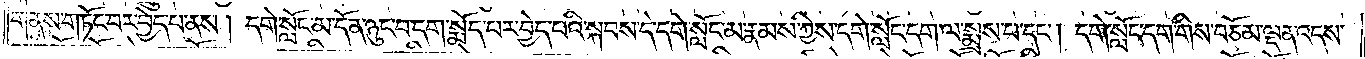གནས་གཏོང་བར་བྱེད་པ་ནས། དགེ་སློང་མ་དོན་ཉུང་བ་དག་སྨོད་པར་བྱེད་པའི་སྐབས་དེ་དགེ་སློང་མ་རྣམས་ཀྱིས་དགེ་སློང་དག་ལ་སྨྲས་པ་དང༌། དགེ་སློང་དག་གིས་བཅོམ་ལྡན་འདས་
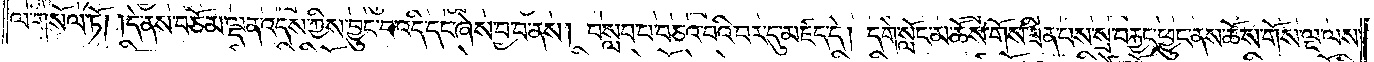ལ་གསོལ་ཏོ། །དེ་ནས་བཅོམ་ལྡན་འདས་ཀྱིས་བྱུང་བ་འདི་དང་ཞེས་བྱ་བ་ནས། བསླབ་པ་བཅའ་བའི་བར་དུ་མཛད་དེ། དགེ་སློང་མ་ཆོས་གོས་ཟིན་པས་སྲ་བརྐྱང་ཕྱུང་ནས་ཆོས་གོས་ལྔ་ལས་
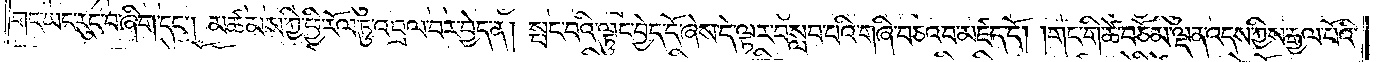གང་ཡང་རུང་བ་ཞིག་དང༌། མཚམས་ཀྱི་ཕྱི་རོལ་ཏུ་འབྲལ་བར་བྱེད་ན། སྤང་བའི་ལྟུང་བྱེད་དོ་ཞེས་དེ་ལྟར་བསླབ་པའི་གཞི་བཅའ་བ་མཛད་དོ། །གང་གི་ཚེ་བཅོམ་ལྡན་འདས་ཀྱིས་རྒྱལ་པོའི་
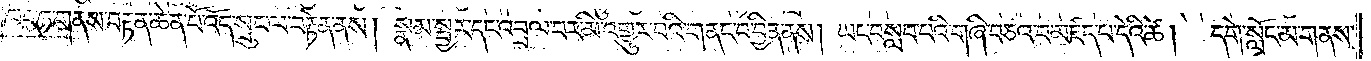ཁབ་ཏུ་གནས་བརྟན་ཆེན་པོ་འོད་སྲུང་ལ་བརྟེན་ནས། སྣམ་སྦྱར་དང་འབྲལ་བར་མི་འགྱུར་བའི་གནང་བ་ཡིན་ནས། ཡང་བསླབ་པའི་གཞི་བཅའ་བ་མཛད་པ་དེའི་ཚེ། དགེ་སློང་མ་གནས་
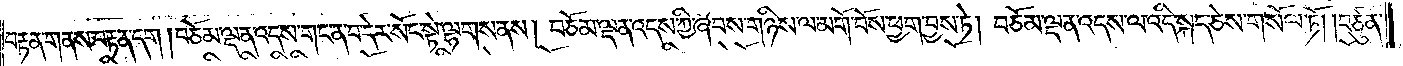བརྟན་གནས་བརྟན་དག །བཅོམ་ལྡན་འདས་གང་ན་བ་དེར་སོང་སྟེ་ལྷགས་ནས། བཅོམ་ལྡན་འདས་ཀྱི་ཞབས་གཉིས་ལ་མགོ་བོས་ཕྱག་བྱས་ཏེ། བཅོམ་ལྡན་འདས་ལ་འདི་སྐད་ཅེས་གསོལ་ཏོ། །བཙུན་
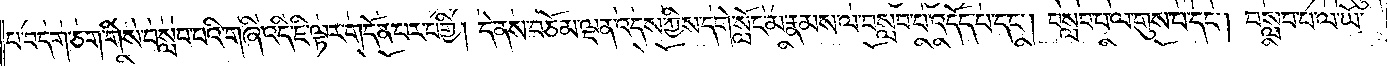པ་བདག་ཅག་གིས་བསླབ་པའི་གཞི་འདི་ཇི་ལྟར་གདོན་པར་བགྱི། དེ་ནས་བཅོམ་ལྡན་འདས་ཀྱིས་དགེ་སློང་མ་རྣམས་ལ་བསླབ་པ་འདོད་པ་དང༌། བསླབ་པ་ལ་གུས་པ་དང༌། བསླབ་པ་ལ་ཡོ་
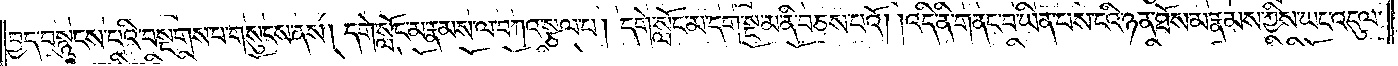བྱད་བསྙུངས་པའི་བསྔགས་པ་གསུངས་ནས། དགེ་སློང་མ་རྣམས་ལ་བཀའ་སྩལ་པ། དགེ་སློང་མ་དག་སྔ་མ་ནི་བཅས་པའོ། །འདི་ནི་གནང་བ་ཡིན་པས་ངའི་ཉན་ཐོས་མ་རྣམས་ཀྱིས་ཡང་འདུལ་
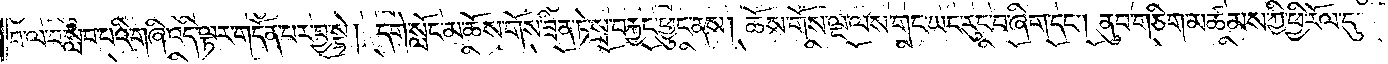བ་ལ་བསླབ་པའི་གཞི་འདི་ལྟར་གདོན་པར་བྱ་སྟེ། དགེ་སློང་མ་ཆོས་གོས་ཟིན་ཏེ་སྲ་བརྐྱང་ཕྱུང་ནས། ཆོས་གོས་ལྔ་ལས་གང་ཡང་རུང་བ་ཞིག་དང༌། ནུབ་གཅིག་མཚམས་ཀྱི་ཕྱི་རོལ་དུ་
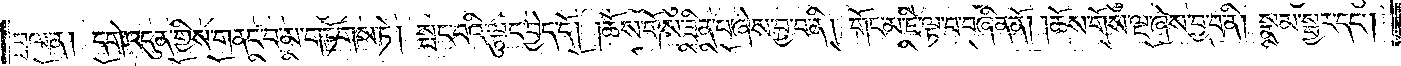བྲལ་ན། དགེ་འདུན་གྱིས་གནང་བ་མ་གཏོགས་ཏེ། སྤང་བའི་ལྟུང་བྱེད་དོ། །ཆོས་གོས་ཟིན་པ་ཞེས་བྱ་བ་ནི། གོང་མ་ཇི་ལྟ་བ་བཞིན་ནོ། །ཆོས་གོས་ལྔ་ཞེས་བྱ་བ་ནི། སྣམ་སྦྱར་དང༌།
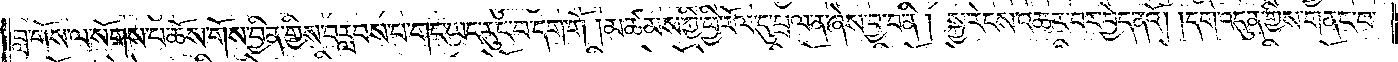བླ་གོས་ལ་སོགས་པ་ཆོས་གོས་བྱིན་གྱིས་བརླབས་པ་གང་ཡང་རུང་བ་དག་གོ །མཚམས་ཀྱི་ཕྱི་རོལ་དུ་བྲལ་ན་ཞེས་བྱ་བ་ནི། སྐྱ་རེངས་འཆར་བར་བྱེད་ནའོ། །དགེ་འདུན་གྱིས་གནང་བ་
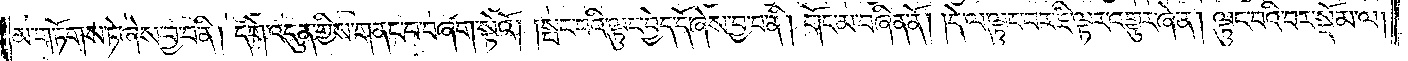མ་གཏོགས་ཏེ་ཞེས་བྱ་བ་ནི། དགེ་འདུན་གྱིས་གནང་བ་བཞག་སྟེའོ། །སྤང་བའི་ལྟུང་བྱེད་དོ་ཞེས་བྱ་བ་ནི། གོང་མ་བཞིན་ནོ། །དེ་ལ་ལྟུང་བར་ཇི་ལྟར་འགྱུར་ཞེ་ན། ལྟུང་བའི་བར་སྡོམ་ལ།
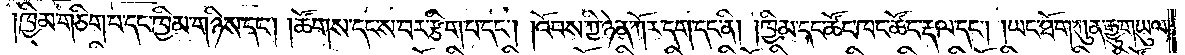ཁྱིམ་གཅིག་པ་དང་ཁྱིམ་གཉིས་དང༌། །ཚོགས་དང་ས་བར་རྩིག་པ་དང༌། །འོབས་ཀྱི་ཉེན་ཀོར་དག་དང་ནི། །ཁྱིམ་དང་ཚོང་ཁང་ཚོང་རྡལ་དང༌། །ཡང་ཐོག་ཀུན་རྒྱུ་གཡུལ་
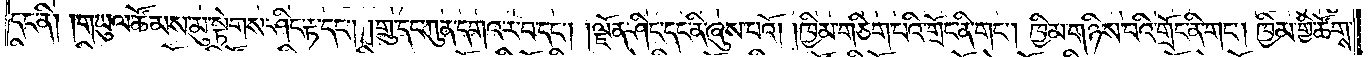དང་ནི། །གཡུལ་ཚོམས་མུ་སྟེགས་ཤིང་རྟ་དང༌། །གྲུ་དང་ཀུན་དགའ་ར་བ་དང༌། །ལྗོན་ཤིང་དང་ནི་ཞུས་པའོ། །ཁྱིམ་གཅིག་པའི་གྲོང་ནི་གང༌། ཁྱིམ་གཉིས་པའི་གྲོང་ནི་གང༌། ཁྱིམ་གྱི་ཚོགས་
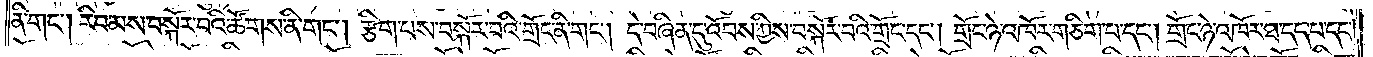ནི་གང༌། རིབ་མས་བསྐོར་བའི་ཚོགས་ནི་གང༌། རྩིག་པས་བསྐོར་བའི་གྲོང་ནི་གང༌། དེ་བཞིན་དུ་འོབས་ཀྱིས་བསྐོར་བའི་གྲོང་དང༌། གྲོང་ཉེ་འཁོར་གཅིག་པ་དང༌། གྲོང་ཉེ་འཁོར་ཐ་དད་པ་དང༌།
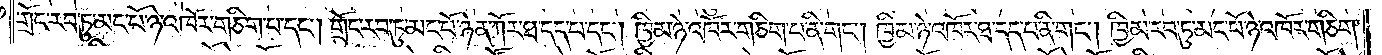གྲོང་རབ་ཏུ་མང་པོ་ཉེ་འཁོར་གཅིག་པ་དང༌། གྲོང་རབ་ཏུ་མང་པོ་ཉེན་ཀོར་ཐ་དད་པ་དང༌། ཁྱིམ་ཉེ་འཁོར་གཅིག་པ་ནི་གང༌། ཁྱིམ་ཉེ་འཁོར་ཐ་དད་པ་ནི་གང༌། ཁྱིམ་རབ་ཏུ་མང་པོ་ཉེ་འཁོར་གཅིག་
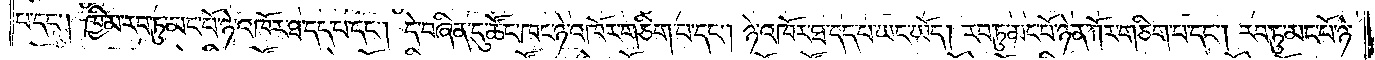པ་དང༌། ཁྱིམ་རབ་ཏུ་མང་པོ་ཉེ་འཁོར་ཐ་དད་པ་དང༌། དེ་བཞིན་དུ་ཚོང་ཁང་ཉེ་ཁོར་གཅིག་པ་དང༌། ཉེ་འཁོར་ཐ་དད་པ་ཡང་ཡོད། རབ་ཏུ་མང་པོ་ཉེན་ཀོར་གཅིག་པ་དང༌། རབ་ཏུ་མང་པོ་ཉེ་
